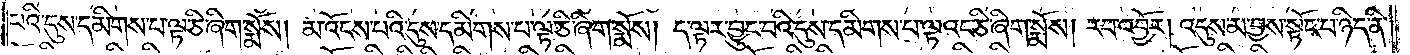པའི་དུས་དམིགས་པ་ལྟ་ཅི་ཞིག་སྨོས། མ་འོངས་པའི་དུས་དམིགས་པ་ལྟ་ཅི་ཞིག་སྨོས། ད་ལྟར་བྱུང་བའི་དུས་དམིགས་པ་ལྟའང་ཅི་ཞིག་སྨོས། རབ་འབྱོར། འདུས་མ་བྱས་སྟོང་པ་ཉིད་ནི་
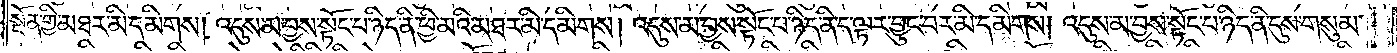སྔོན་གྱི་མཐར་མི་དམིགས། འདུས་མ་བྱས་སྟོང་པ་ཉིད་ནི་ཕྱི་མའི་མཐར་མི་དམིགས། འདུས་མ་བྱས་སྟོང་པ་ཉིད་ནི་ད་ལྟར་བྱུང་བར་མི་དམིགས། འདུས་མ་བྱས་སྟོང་པ་ཉིད་ནི་དུས་གསུམ་
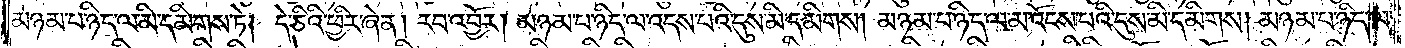མཉམ་པ་ཉིད་ལ་མི་དམིགས་ཏེ། དེ་ཅིའི་ཕྱིར་ཞེ་ན། རབ་འབྱོར། མཉམ་པ་ཉིད་ལ་འདས་པའི་དུས་མི་དམིགས། མཉམ་པ་ཉིད་ལ་མ་འོངས་པའི་དུས་མི་དམིགས། མཉམ་པ་ཉིད་ལ་
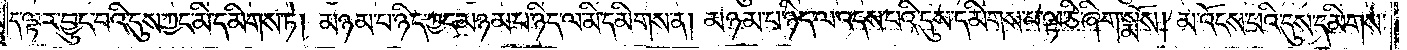ད་ལྟར་བྱུང་བའི་དུས་ཀྱང་མི་དམིགས་ཏེ། མཉམ་པ་ཉིད་ཀྱང་མཉམ་པ་ཉིད་ལ་མི་དམིགས་ན། མཉམ་པ་ཉིད་ལ་འདས་པའི་དུས་དམིགས་པ་ལྟ་ཅི་ཞིག་སྨོས། མ་འོངས་པའི་དུས་དམིགས་
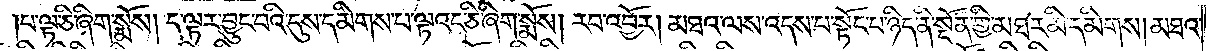པ་ལྟ་ཅི་ཞིག་སྨོས། ད་ལྟར་བྱུང་བའི་དུས་དམིགས་པ་ལྟའང་ཅི་ཞིག་སྨོས། རབ་འབྱོར། མཐའ་ལས་འདས་པ་སྟོང་པ་ཉིད་ནི་སྔོན་གྱི་མཐར་མི་དམིགས། མཐའ་
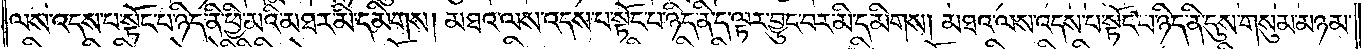ལས་འདས་པ་སྟོང་པ་ཉིད་ནི་ཕྱི་མའི་མཐར་མི་དམིགས། མཐའ་ལས་འདས་པ་སྟོང་པ་ཉིད་ནི་ད་ལྟར་བྱུང་བར་མི་དམིགས། མཐའ་ལས་འདས་པ་སྟོང་པ་ཉིད་ནི་དུས་གསུམ་མཉམ་
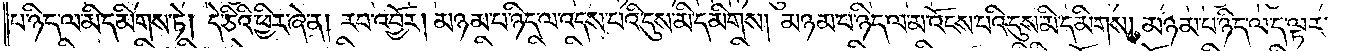པ་ཉིད་ལ་མི་དམིགས་ཏེ། དེ་ཅིའི་ཕྱིར་ཞེ་ན། རབ་འབྱོར། མཉམ་པ་ཉིད་ལ་འདས་པའི་དུས་མི་དམིགས། མཉམ་པ་ཉིད་ལ་མ་འོངས་པའི་དུས་མི་དམིགས། མཉམ་པ་ཉིད་ལ་ད་ལྟར་
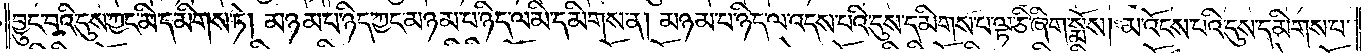བྱུང་བའི་དུས་ཀྱང་མི་དམིགས་ཏེ། མཉམ་པ་ཉིད་ཀྱང་མཉམ་པ་ཉིད་ལ་མི་དམིགས་ན། མཉམ་པ་ཉིད་ལ་འདས་པའི་དུས་དམིགས་པ་ལྟ་ཅི་ཞིག་སྨོས། མ་འོངས་པའི་དུས་དམིགས་པ་
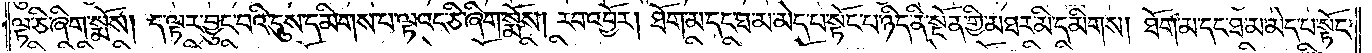ལྟ་ཅི་ཞིག་སྨོས། ད་ལྟར་བྱུང་པའི་དུས་དམིགས་པ་ལྟའང་ཅི་ཞིག་སྨོས། རབ་འབྱོར། ཐོག་མ་དང་ཐ་མ་མེད་པ་སྟོང་པ་ཉིད་ནི་སྔོན་གྱི་མཐར་མི་དམིགས། ཐོག་མ་དང་ཐ་མ་མེད་པ་སྟོང་
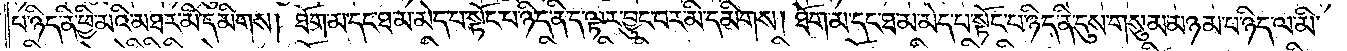པ་ཉིད་ནི་ཕྱི་མའི་མཐར་མི་དམིགས། ཐོག་མ་དང་ཐ་མ་མེད་པ་སྟོང་པ་ཉིད་ནི་ད་ལྟར་བྱུང་བར་མི་དམིགས། ཐོག་མ་དང་ཐ་མ་མེད་པ་སྟོང་པ་ཉིད་ནི་དུས་གསུམ་མཉམ་པ་ཉིད་ལ་མི་
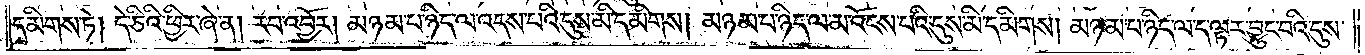དམིགས་ཏེ། དེ་ཅིའི་ཕྱིར་ཞེ་ན། རབ་འབྱོར། མཉམ་པ་ཉིད་ལ་འདས་པའི་དུས་མི་དམིགས། མཉམ་པ་ཉིད་ལ་མ་འོངས་པའི་དུས་མི་དམིགས། མཉམ་པ་ཉིད་ལ་ད་ལྟར་བྱུང་པའི་དུས་
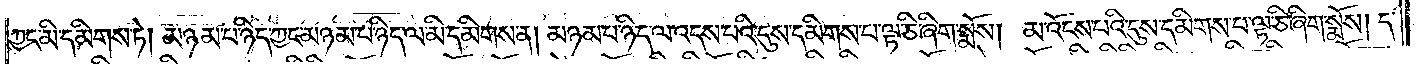ཀྱང་མི་དམིགས་ཏེ། མཉམ་པ་ཉིད་ཀྱང་མཉམ་པ་ཉིད་ལ་མི་དམིགས་ན། མཉམ་པ་ཉིད་ལ་འདས་པའི་དུས་དམིགས་པ་ལྟ་ཅི་ཞིག་སྨོས། མ་འོངས་པའི་དུས་དམིགས་པ་ལྟ་ཅི་ཞིག་སྨོས། ད་
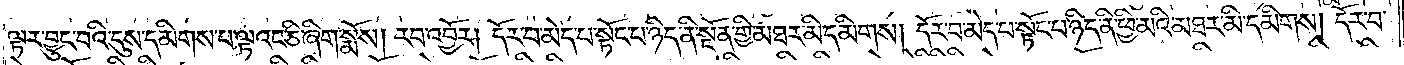ལྟར་བྱུང་བའི་དུས་དམིགས་པ་ལྟའང་ཅི་ཞིག་སྨོས། རབ་འབྱོར། དོར་བ་མེད་པ་སྟོང་པ་ཉིད་ནི་སྔོན་གྱི་མཐར་མི་དམིགས། དོར་བ་མེད་པ་སྟོང་པ་ཉིད་ནི་ཕྱི་མའི་མཐར་མི་དམིགས། དོར་བ་
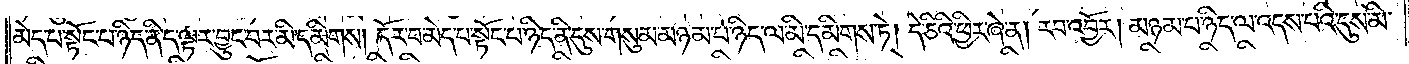མེད་པ་སྟོང་པ་ཉིད་ནི་ད་ལྟར་བྱུང་བར་མི་དམིགས། དོར་བ་མེད་པ་སྟོང་པ་ཉིད་ནི་དུས་གསུམ་མཉམ་པ་ཉིད་ལ་མི་དམིགས་ཏེ། དེ་ཅིའི་ཕྱིར་ཞེ་ན། རབ་འབྱོར། མཉམ་པ་ཉིད་ལ་འདས་པའི་དུས་མི་
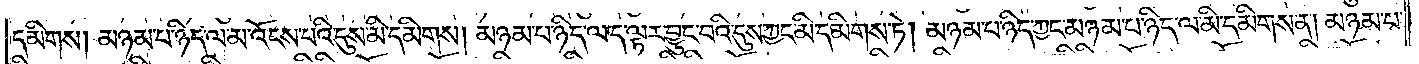དམིགས། མཉམ་པ་ཉིད་ལ་མ་འོངས་པའི་དུས་མི་དམིགས། མཉམ་པ་ཉིད་ལ་ད་ལྟར་བྱུང་བའི་དུས་ཀྱང་མི་དམིགས་ཏེ། མཉམ་པ་ཉིད་ཀྱང་མཉམ་པ་ཉིད་ལ་མི་དམིགས་ན། མཉམ་པ་
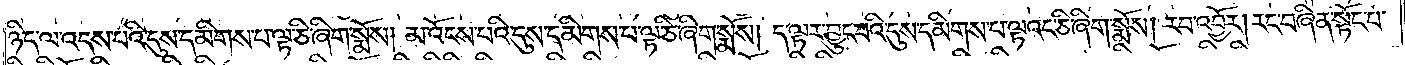ཉིད་ལ་འདས་པའི་དུས་དམིགས་པ་ལྟ་ཅི་ཞིག་སྨོས། མ་འོངས་པའི་དུས་དམིགས་པ་ལྟ་ཅི་ཞིག་སྨོས། ད་ལྟར་བྱུང་བའི་དུས་དམིགས་པ་ལྟའང་ཅི་ཞིག་སྨོས། རབ་འབྱོར། རང་བཞིན་སྟོང་པ་
